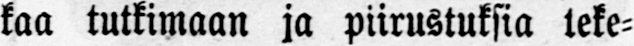kaa tutkimaan ja piirustuksia teke-
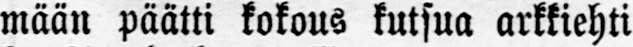mään päätti kokous kutsua arkkiehti
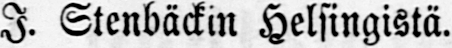I. Stenbäckin Helsingistä.
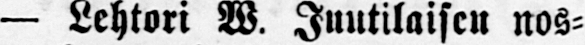— Lehtori W. Juutilaisen nos-
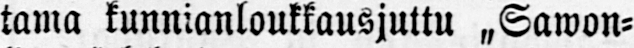tama kunnianloukkausjuttu „Sawon-
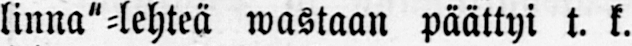linna"-lehteä wastaan päättyi t. k.
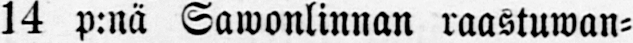14 p:nä Sawonlinnan raastuwan-
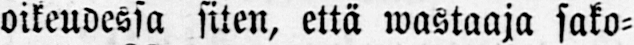oikeudessa siten, että wastaaja sako-
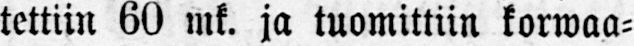tettiin 60 mk. ja tuomittiin korwaa-
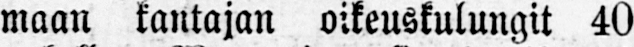maan kantajan oikeuskulungit 40
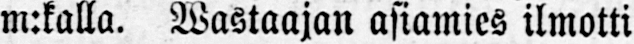m:kalla. Wastaajan asiamies ilmotti
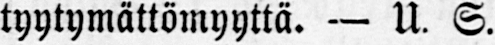tyytymättömyyttä. — U. S.
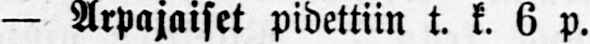— Arpajaiset pidettiin t. k. 6 p.
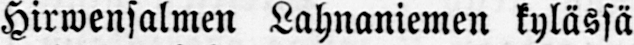Hirwensalmen Lahnaniemen kylässä
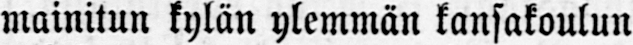mainitun kylän ylemmän kansakoulun
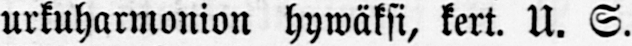urkuharmonion hywäksi, kert. U. S.
